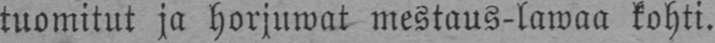tuomitut ja horjuwat mestaus-lawaa kohti.
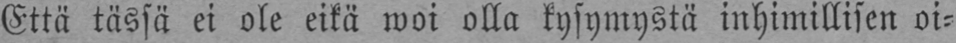Että tässä ei ole eikä woi olla kysymystä inhimillisen oi-
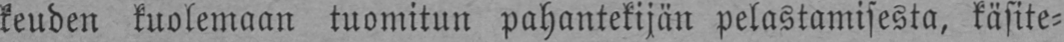keuden kuolemaan tuomitun pahantekijän pelastamisesta, käsite-
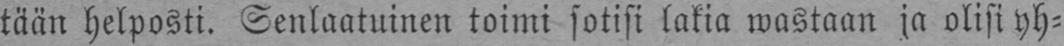tään helposti. Senlaatuinen toimi sotisi lakia wastaan ja olisi yh-
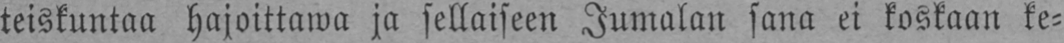teiskuntaa hajoittawa ja sellaiseen Jumalan sana ei koskaan ke-
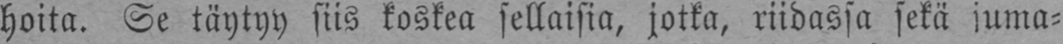hoita. Se täytyy siis koskea sellaisia, jotka, riidassa sekä juma-
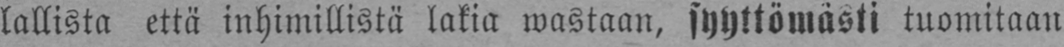lallista että inhimillistä lakia wastaan, syyttömästi tuomitaan
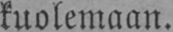kuolemaan.
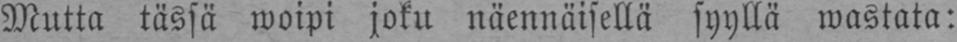Mutta tässä woipi joku näennäisellä syyllä wastata:
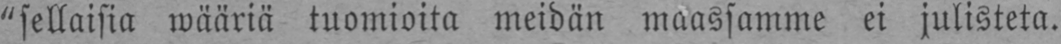"sellaisia wääriä tuomioita meidän maassamme ei julisteta.
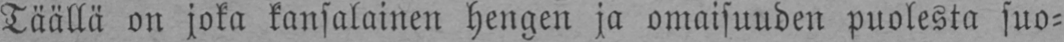Täällä on joka kansalainen hengen ja omaisuuden puolesta suo-
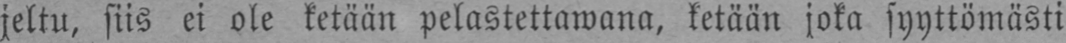jeltu, siis ei ole ketään pelastettawana, ketään joka syyttömästi
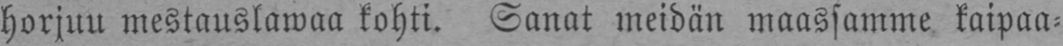horjuu mestauslawaa kohti. Sanat meidän maassamme, kaipaa-
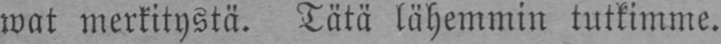wat merkitystä. Tätä lähemmin tutkimme.
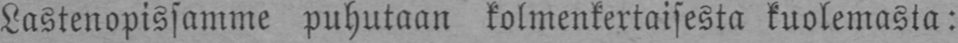Lastenopissamme puhutaan kolmenkertaisesta kuolemasta:
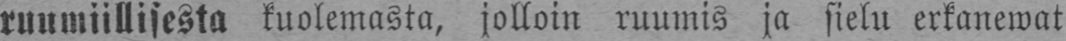ruumiillisesta kuolemasta, jolloin ruumis ja sielu erkanewat
